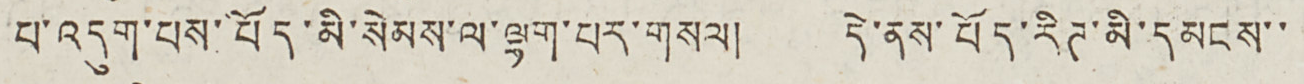པ་འདུག་པས་བོད་མི་སེམས་ལ་ལྷག་པར་གསལ། དེ་ནས་པོད་རིཊ་མི་དམངས་་
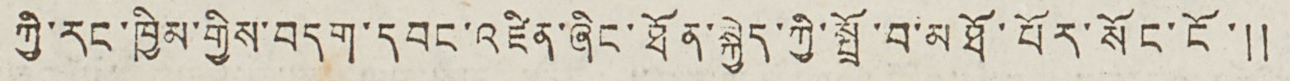ཀྱི་རང་ཁྱིམ་གྱིས་བདག་དབང་འཛིན་ཞིང་ཐོན་སྐྱེད་ཀྱི་སྤྲོ་བ་མཐོ་པོར་སོང་ངོ་༎
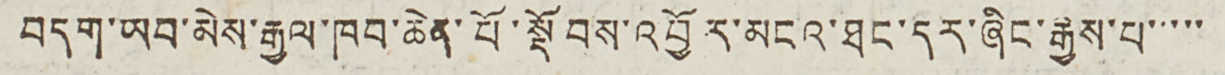བདག་ཡབ་མེས་རྒྱལ་ཁབ་ཆེན་པོ་སྡོབས་འབྱོར་མངའ་ཐང་དར་ཞིང་རྒྱས་པ་་་་་་
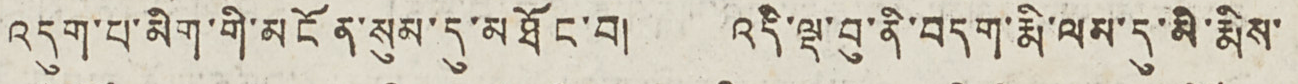འདུག་པ་མིག་གི་མངོན་སུམ་དུ་མཐོང་བ། འདི་ལྡ་བུ་ནི་བདག་རྨི་ལམ་དུ་མི་རྨིས་
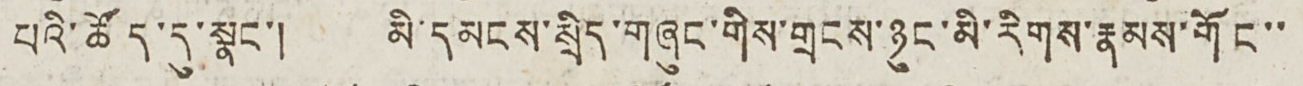པའི་ཚོད་དུ་སྣང་། མི་དམངས་སྲིད་གཞུང་གིས་གྲངས་ཉུང་མི་རིགས་རྣམས་གོང་་
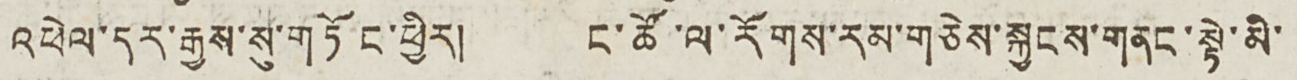འཕེལ་དར་རྒྱས་སུ་གཏོང་ཕྱིར། ང་ཚོ་ལ་རོགས་རམ་གཅེས་སྐྱངས་གནང་སྟེ་མི་
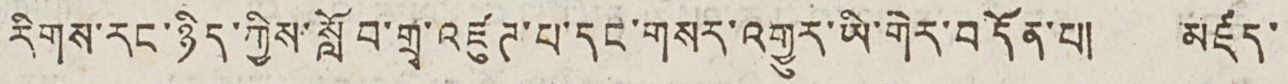རིགས་རང་ཉིད་ཀྱིས་སློབ་གྲྭ་འཛུཊ་པ་དང་གསར་འགྱུར་ཡི་གེར་བདོན་པ། མཛད་
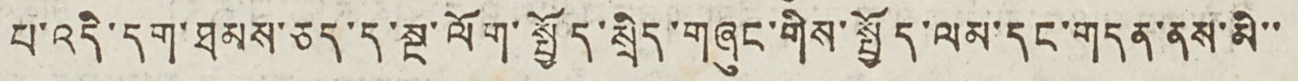པ་འདི་དག་ཐམས་ཅད་ད་སྔ་ལོག་སྤྱོད་སྲིད་གཞུང་གིས་སྤྱོད་ལམ་དང་གདན་ནས་མི་་
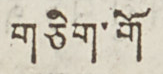གཅིག་གོ
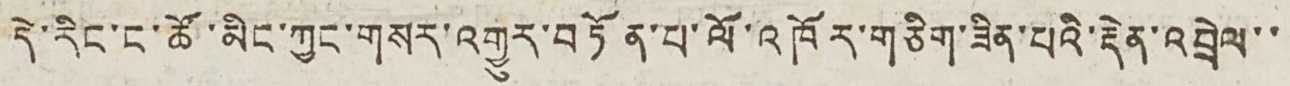དེ་རིང་ང་ཚོ་མིང་ཀྱང་གསར་འགྱུར་བཏོན་པ་ལོ་འཁོར་གཅིག་ཟིན་པའི་རྡེན་འབྲེལ་་
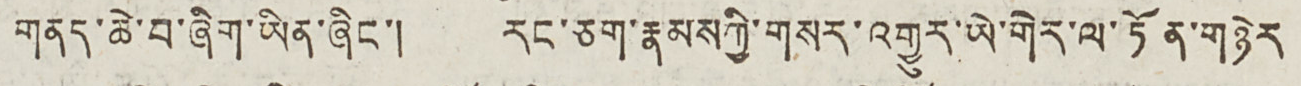གནད་ཆེ་བ་ཞིག་ཡིན་ཞིང་། རང་ཅག་རྣམས ཀྱི་གསར་འགྱུར་ཡེ་གེར་ལ་ཏོན་གཉེར་
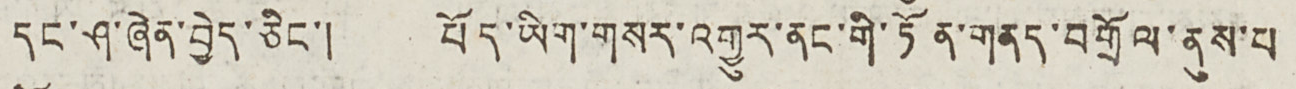དང་ཤ་ཞེན་བྱེད་ཅིང་། པོད་ཡིག་གསར་འགྱུར་ནང་གི་ཏོན་གནད་བགྲོལ་ནུས་པ
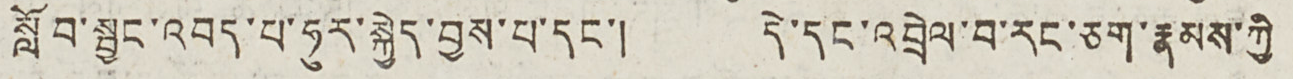སློབ་སྦྱང་འབད་པ་ཧུར་སྐྱེད་བྱས་པ་དང་། དེ་དང་འབྲེལ་བ་རང་ཅག་རྣམས་ཀྱི
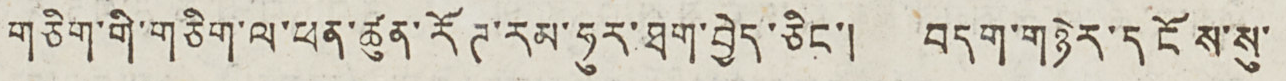གཅིག་གི་གཅིག་ལ་ཕན་ཚུན་རོཊ་རམ་ཧུར་ཐག་བྱེད་ཅིང་། བདག་གཉེར་དངོས་སུ་
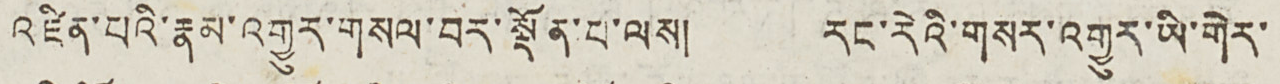འཛིན་པའི་རྣམ་འགྱུར་གསལ་བར་སྡོན་པ་ལས། རང་རེའི་གསར་འགྱུར་ཡི་གེར་
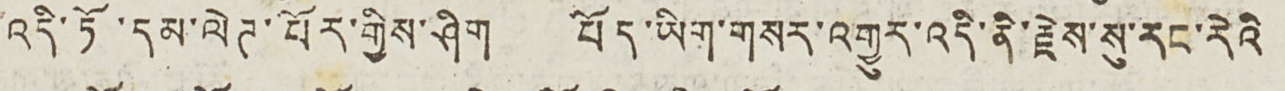འདི་ཏོ་དམ་ལེཊ་པོར་གྱིས་ཤིག པོད་ཡིག་གསར་འགྱུར་འདི་ནི་རྗེས་སུ་རང་རེའི
